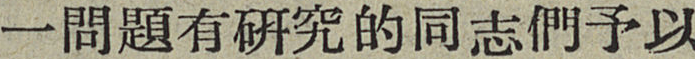一問題有研究的同志們予以
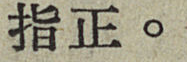指正。
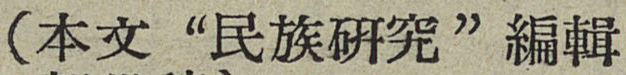（本文“民族研究”編輯
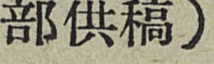部供稿）
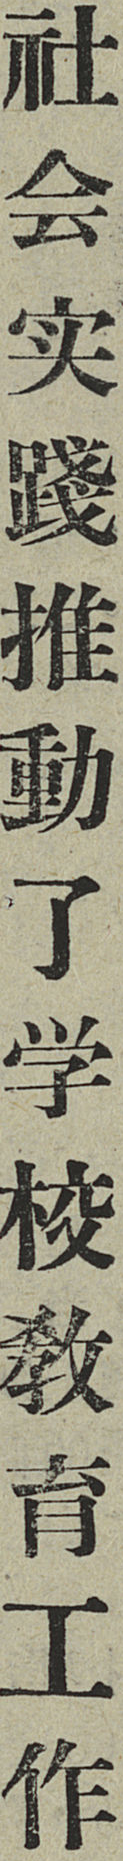社会實踐推動了学校敎育工作
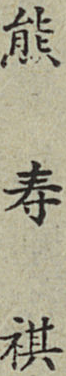熊 寿 祺
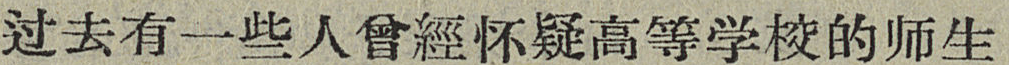过去有一些人曾經怀疑高等学校的师生
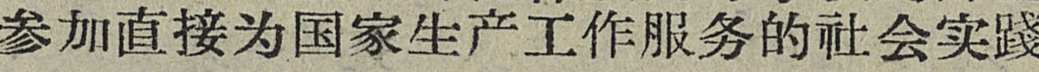参加直接为国家生产工作服务的社会实踐
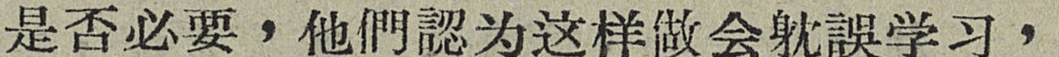是否必要，他們認为这样做会躭誤学习，
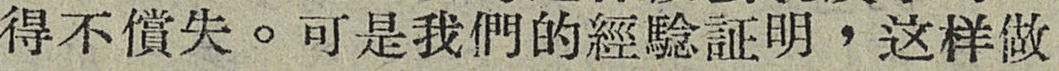得不償失。可是我們的經騐証明，这样做
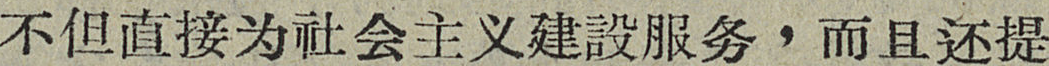不但直接为社会主义建設服务，而且还提
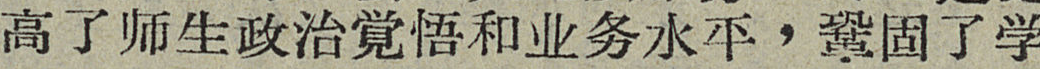高了师生政治覚悟和业务水平，鞏固了学
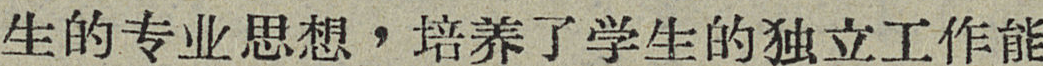生的专业思想，培养了学生的独立工作能
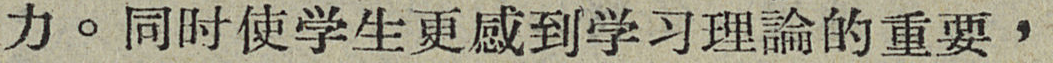力。同时使学生更感到学习理論的重要，
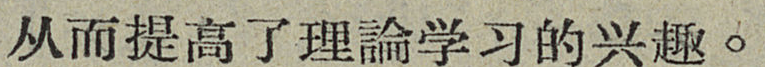从而提高了理論学习的兴趣。
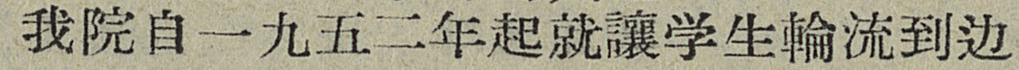我院自一九五二年起就讓学生輪流到边
